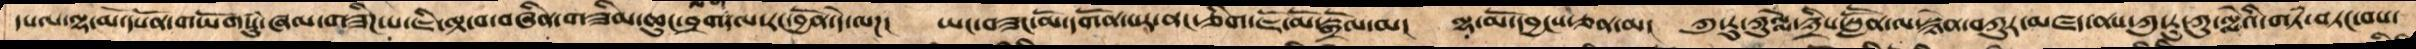དཔལ་ལྷ་མོ་དཔོན་གཡོག་གསུཾ་ཞལ་གཟིཌ་པ་ཇི་ལྟ་བ་བཞིན་གཟིམ་ཆུང་བྲག་ལ་རང་བྱོན་དེ་ལཌ།   ཡང་བཟང་མོ་དགོན་པར་ནང་ཅིག་ཇོ་མོ་སྒྲོལ་མ།   ལྷ་མོ་དབྱངས་ཅན་མ།   ཀུ་རུ་ཀུལླེ་༣ིས་སླཽན་ལ་སྙེན་བཀུར་མཛད་ནས་ཀུ་རུ་ཀུ་ལླེའི་གཏཾ་བཏང་བས་
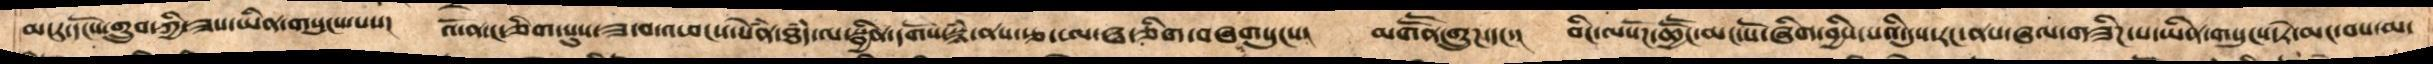མངར་དངོས་གྲུབ་ཀྱི་ཟས་ཡིན་གསུངས་པས།   འོ་ན་ང་ཅིག་པུས་ཟ་བ་འཕངས་སེཾན་ཐཾད་ལ་སྦྱིན་དགོས་སྙཾ་ནས་རྩ་ཨ་ཝ་ཅིག་བཞགསུངས།    མགཽན་གྲུཌ་དང་།   བིང་ལསོཌ་ཆྱཽང་མང་པོ་ཞིག་བྱིས་པའི་དུས་རང་ནས་ཞལ་གཟིཌ་པ་ཡིན་གསུངས་ཏེ་མང་བས་མ་
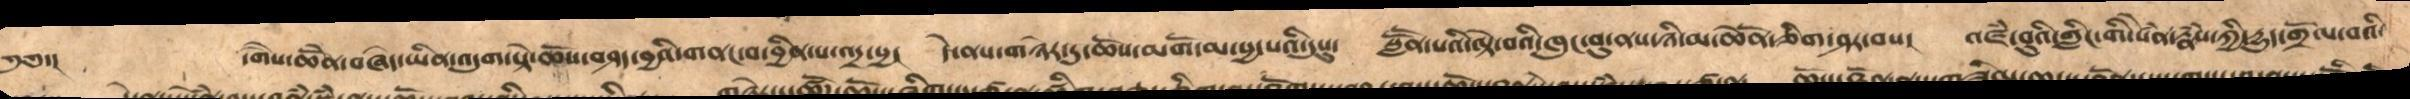༄༅་།   དགཻས་ཆེནོ་བཞེད་ཡིན་འདུག་སྟེ་ཆོས་བཤད་བྱའི་གནང་བ་བྱིན་པ་འདྲ་སྱ། དེ་ནས་གཉེར་དུ་ཆོས་མགོ་མ་པྱ་བའི་དུསུ། སླཽན་པའི་ལྟེ་བའི་ཁུང་བུ་ནས་ཉི་མ་ཆེནོ་ཅིག་ཤར་བས། འཛཾ་བུའི་གླིང་གི་སེཾན་རྣཾས་ཀྱི་དྱུད་གྲོལ་བའི་
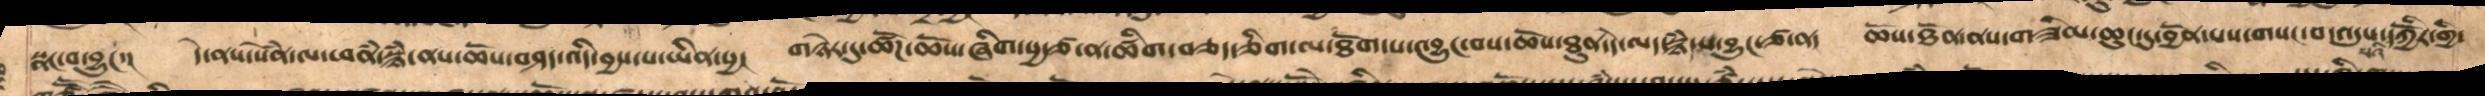སྣང་བ་བྱུང་། དེ་ནས་སེཾན་ལ་ཕནཾ་སྙཾ་ནས་ཆོས་བཤད་འདི་བྱས་པ་ཡིན་སྱ།  གཉེར་དུ་ཚོཌ་ཆོས་ཞིག་སྱ་ཙ་ན་ཚིག་བཅད་ཅིག་ལ་ཐོག་པ་འབྱུང་བས་ཆོས་ཐུན་དེ་ལད་སྙཾ་པ་བྱུང་ཙ་ན། ཆོས་ཐོན་ནས་གཟིམ་ཆུང་དུ་བྱོན་པས་གསང་བ་འདུས་པའི་དཀྱིོར་གྱི་
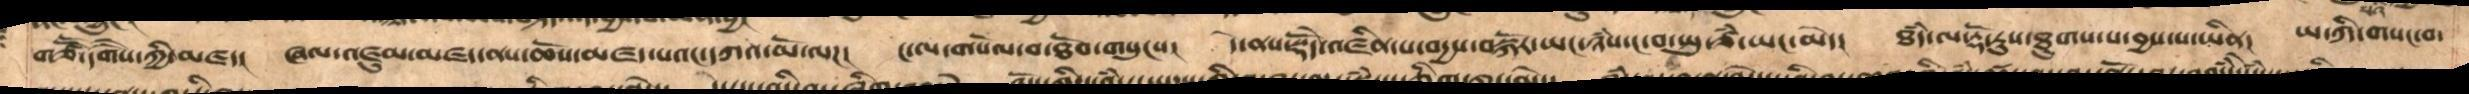གཙཽ་དགཻས་ཀྱི་མཛད།  ཞལ་འཛུམ་མཛད་ནས་ཆོས་མཛད་པའང་དཀའ་མོ་ལཌ།   ང་ལ་གསོལ་བ་ཐོབ་གསུངས།   དེ་ནས་སྡོེད་འཛིན་པ་བདྱས་བསྐོར་ཀྱང་ཉཾས་ང་བ་སྤུ་ཙཾ་ཡང་མེད།   ཐཾད་ལ་རྡོ་རུས་ཐུགས་པ་བྱས་པ་ཡིན།   ཡ་ཀི་གསང་བ་
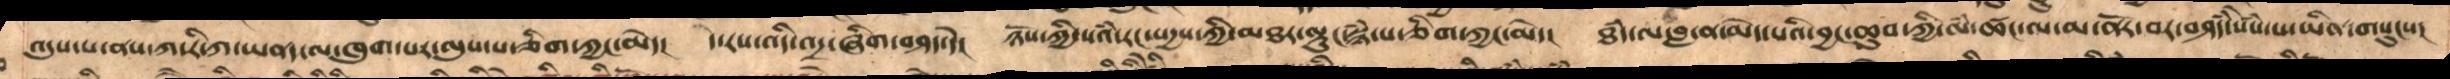འདུས་པ་ནས་ཀ་རི་ཀ་ཡནད་ལ་ཁུག་པར་ལུས་པ་ཅིག་ཀྱང་མེད།   ད་རས་འདི་འདྲ་ཞིག་བཤད་དེ།    ཉོས་ཀྱི་སའཾ་རང་སདྱས་ཀྱི་མཐར་ལྟུང་སྙཾ་པ་ཅིག་ཀྱང་མེད།   ཐཾད་ལ་བླ་ན་མེད་པའི་བྱང་ཆུབ་ཀྱི་ལཾ་ཚང་ལ་མ་ནོར་བར་བཤདོ་སེཾས་པ་ཡིན་གསུངས།
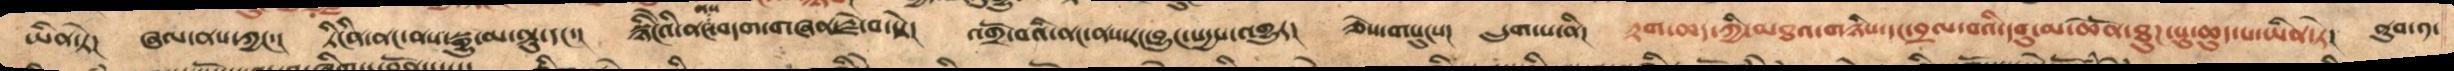ཡིན་ཏེ།   ཞལ་ནས་ཀྱང་།   ཏིངིན་ནང་ནས་སྒྱུ་མ་ལྟུ་དང་།   སྙིངེའི་ནང་ནས་བདག་གཞན་བརྗེ་བ་སྟེ།   འགྲོ་བའི་ནང་ནས་རང་བྱུང་སདྱས་འགྱུར།   ཅེས་གསུངས།    དྲུག་པ་ནི།  རྟག་ཆད་ཀྱི་མཐའ་གཉིས་དང་བྲལ་བའི་དབུ་མ་ཆེནོ་ཐུཌ་སུ་ཆུད་པ་ཡིན་ཏེ།   ནུབ་༡་
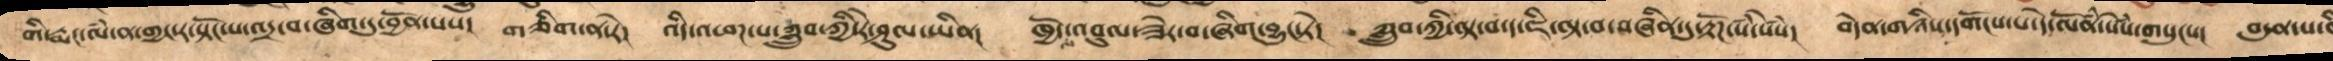གི་རྨང་ལཾ་ན་གྱང་ར་སྟོང་པ་འདྲ་བ་ཞིག་དུ་བྱོན་པས།   གཅིག་ན་རེ།   འདི་འཕཌ་པ་ཀླྲུབ་ཀྱི་རེ་ཤུལ་ཡིན།   ཁྱོད་ལ་འབུལ་ཟེར་བ་ཞིག་བྱུང་ཏེ།    ཀླྲུབ་ཀྱི་ལྟ་བ་དེ་ཇི་ལྟ་བ་བཞིན་དུ་རྟོཌ་སཾ་སེཾས།   བདེན་གཉིས་དགོངས་པ་དེ་ལོནཾ་སེཾས་གསུངས། བདུན་པ་ནི
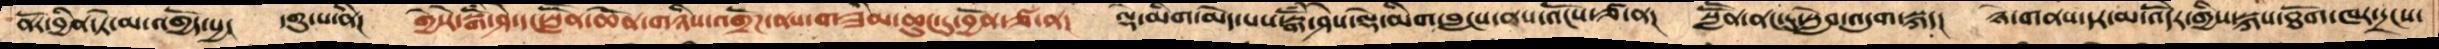ནོར་བྱིན་ཏེ་མ་འགྱོད་སྱ།   དགུ་པ་ནི།   གྱེ་རེ་སྒོཾ་ཤེ་དང་སླཽན་ཆེནོ་གཉིས་འགྲོཌ་ནས་གཟིམ་ཆུང་དུ་བྱོན་ཙ་ན།   ལྡེ་མིག་མེད་པས་སྒོཾ་ཤེས་ལྡེ་མིག་བླངས་ནས་འོངས་ཙ་ན།   སླཽན་ནང་དུ་སླེབ་འདུག་སྐད།   ཉེ་གནས་དར་མ་འོདེར་གྱིས་སྐས་ཐོག་ཁར་དྲངས་
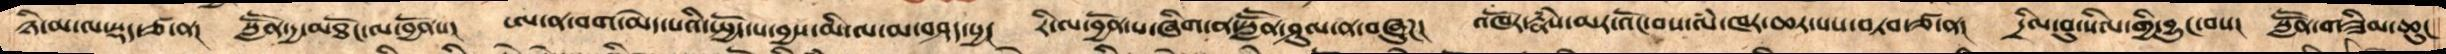ཉི་མ་ལ་སྡད་ཙ་ན།   སླཽན་དྱ་མཐོང་ལ་བྱོནས།   ཨ་ན་བག་མེད་པའི་སྤྱོད་པ་བྱས་མི་ལ་མ་བཤད་སྱ།  རི་ལ་བྱོན་པ་ཞིག་ན་སླཽན་ཤུལ་ན་བཞུཌ།   འཁོར་རྣཾས་མར་འོང་བས་ལཾ་ཁར་ཆར་པས་བཏབ་ཙ་ན།   དྲིལ་བུ་སིལ་གྱི་བྱུང་བས།  སླཽན་གཟིམ་ཆུང
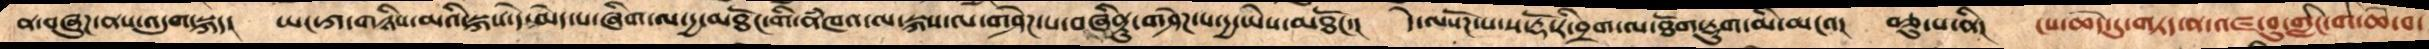ན་བཞུཌ་ནས་འདུག་སྐད།  ཡང་ཀ་གཉིས་མའི་སྐས་དེ་མེད་པ་ཞིག་ལ་དྱ་མཐོང་གི་ནཾམཁའ་ལ་སྐས་ལ་གཤེཌ་པ་བཞིནྟུ་གཤེཌ་པ་དྱ་ཡིས་མཐོང་།   དེ་ལ་སོཌ་པ་ས་རྡོ་རི་བྲག་ལ་ཐོག་རྡུག་མི་མངའ།  བཅུ་པ་ནི། ངས་ཆེད་དུ་གཏད་ན་འཛ་བུ་གླིང་གི་ཆེ་བ་
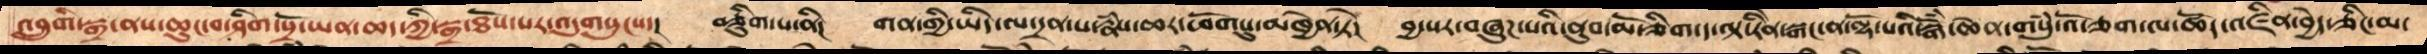འབྲུགི་སྒྲ་ནས་ཆུང་བ་ཤིག་སྲོ་ཡན་ཆད་ཀྱི་སྒྲ་ཐོས་པར་འདུག་གསུངས་།   བཅིུག་པ་ནི།   གན་གྱི་ཡིད་ལ་དྲན་པ་རྣཾས་ཆར་ཕོགསུ་མཁྱེན་ཏེ།   བྱ་སར་བཞུཌ་པའི་ནུབ་མོ་ཅིག་ད་ལྟ་རིེན་སྒང་ན་ལྷོ་པའི་སྒོཾ་ཆེན་གསུཾ་འོ་ཅག་ལ་ཚོད་འཛིན་བྱེད་ཅིང་མ་
